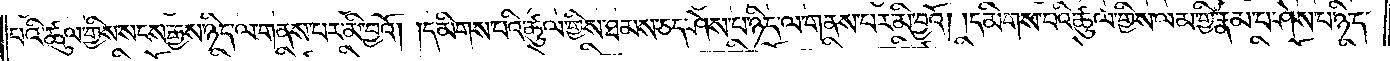པའི་ཚུལ་གྱིས་སངས་རྒྱས་ཉིད་ལ་གནས་པར་མི་བྱའོ། །དམིགས་པའི་ཚུལ་གྱིས་ཐམས་ཅད་ཤེས་པ་ཉིད་ལ་གནས་པར་མི་བྱའོ། །དམིགས་པའི་ཚུལ་གྱིས་ལམ་གྱི་རྣམ་པ་ཤེས་པ་ཉིད་
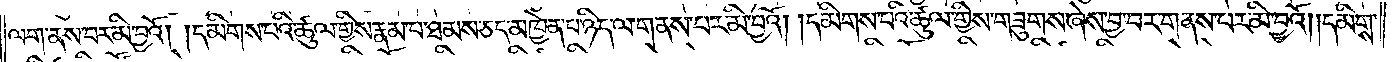ལ་གནས་པར་མི་བྱའོ། །དམིགས་པའི་ཚུལ་གྱིས་རྣམ་པ་ཐམས་ཅད་མཁྱེན་པ་ཉིད་ལ་གནས་པར་མི་བྱའོ། །དམིགས་པའི་ཚུལ་གྱིས་གཟུགས་ཞེས་བྱ་བར་གནས་པར་མི་བྱའོ། །དམིགས་
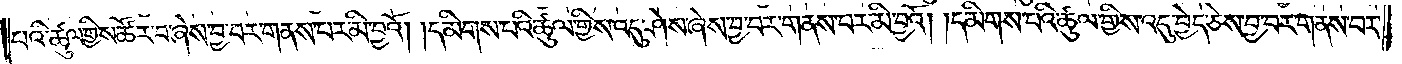པའི་ཚུལ་གྱིས་ཚོར་བ་ཞེས་བྱ་བར་གནས་པར་མི་བྱའོ། །དམིགས་པའི་ཚུལ་གྱིས་འདུ་ཤེས་ཞེས་བྱ་བར་གནས་པར་མི་བྱའོ། །དམིགས་པའི་ཚུལ་གྱིས་འདུ་བྱེད་ཅེས་བྱ་བར་གནས་པར་
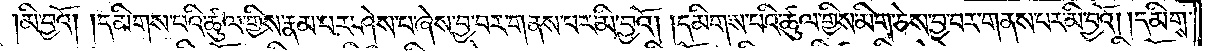མི་བྱའོ། །དམིགས་པའི་ཚུལ་གྱིས་རྣམ་པར་ཤེས་པ་ཞེས་བྱ་བར་གནས་པར་མི་བྱའོ། །དམིགས་པའི་ཚུལ་གྱིས་མིག་ཅེས་བྱ་བར་གནས་པར་མི་བྱའོ། །དམིགས་
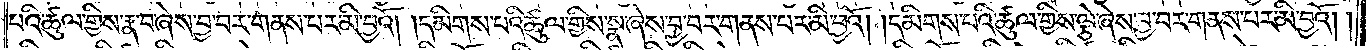པའི་ཚུལ་གྱིས་རྣ་བ་ཞེས་བྱ་བར་གནས་པར་མི་བྱའོ། །དམིགས་པའི་ཚུལ་གྱིས་སྣ་ཞེས་བྱ་བར་གནས་པར་མི་བྱའོ། །དམིགས་པའི་ཚུལ་གྱིས་ལྕེ་ཞེས་བྱ་བར་གནས་པར་མི་བྱའོ། །
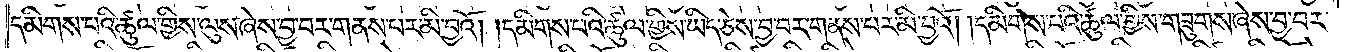དམིགས་པའི་ཚུལ་གྱིས་ལུས་ཞེས་བྱ་བར་གནས་པར་མི་བྱའོ། །དམིགས་པའི་ཚུལ་གྱིས་ཡིད་ཅེས་བྱ་བར་གནས་པར་མི་བྱའོ། །དམིགས་པའི་ཚུལ་གྱིས་གཟུགས་ཞེས་བྱ་བར་
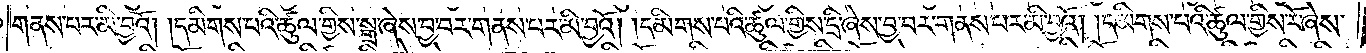གནས་པར་མི་བྱའོ། །དམིགས་པའི་ཚུལ་གྱིས་སྒྲ་ཞེས་བྱ་བར་གནས་པར་མི་བྱའོ། །དམིགས་པའི་ཚུལ་གྱིས་དྲི་ཞེས་བྱ་བར་གནས་པར་མི་བྱའོ། །དམིགས་པའི་ཚུལ་གྱིས་རོ་ཞེས་
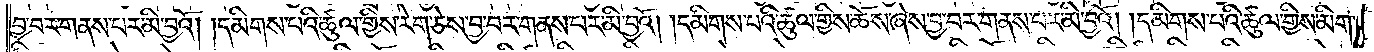བྱ་བར་གནས་པར་མི་བྱའོ། །དམིགས་པའི་ཚུལ་གྱིས་རེག་ཅེས་བྱ་བར་གནས་པར་མི་བྱའོ། །དམིགས་པའི་ཚུལ་གྱིས་ཆོས་ཞེས་བྱ་བར་གནས་པར་མི་བྱའོ། །དམིགས་པའི་ཚུལ་གྱིས་མིག་
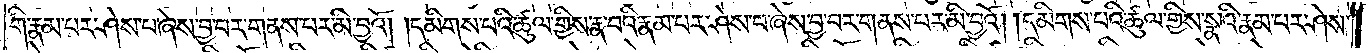གི་རྣམ་པར་ཤེས་པ་ཞེས་བྱ་བར་གནས་པར་མི་བྱའོ། །དམིགས་པའི་ཚུལ་གྱིས་རྣ་བའི་རྣམ་པར་ཤེས་པ་ཞེས་བྱ་བར་གནས་པར་མི་བྱའོ། །དམིགས་པའི་ཚུལ་གྱིས་སྣའི་རྣམ་པར་ཤེས་
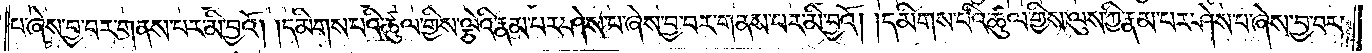པ་ཞེས་བྱ་བར་གནས་པར་མི་བྱའོ། །དམིགས་པའི་ཚུལ་གྱིས་ལྕེའི་རྣམ་པར་ཤེས་པ་ཞེས་བྱ་བར་གནས་པར་མི་བྱའོ། །དམིགས་པའི་ཚུལ་གྱིས་ལུས་ཀྱི་རྣམ་པར་ཤེས་པ་ཞེས་བྱ་བར་
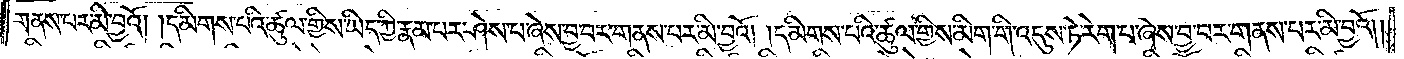གནས་པར་མི་བྱའོ། །དམིགས་པའི་ཚུལ་གྱིས་ཡིད་ཀྱི་རྣམ་པར་ཤེས་པ་ཞེས་བྱ་བར་གནས་པར་མི་བྱའོ། །དམིགས་པའི་ཚུལ་གྱིས་མིག་གི་འདུས་ཏེ་རེག་པ་ཞེས་བྱ་བར་གནས་པར་མི་བྱའོ། །
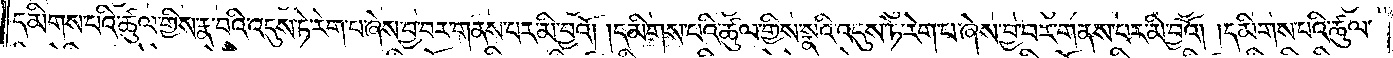དམིགས་པའི་ཚུལ་གྱིས་རྣ་བའི་འདུས་ཏེ་རེག་པ་ཞེས་བྱ་བར་གནས་པར་མི་བྱའོ། །དམིགས་པའི་ཚུལ་གྱིས་སྣའི་འདུས་ཏེ་རེག་པ་ཞེས་བྱ་བར་གནས་པར་མི་བྱའོ། །དམིགས་པའི་ཚུལ་
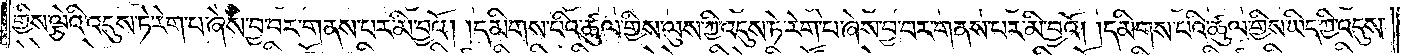གྱིས་ལྕེའི་འདུས་ཏེ་རེག་པ་ཞེས་བྱ་བར་གནས་པར་མི་བྱའོ། །དམིགས་པའི་ཚུལ་གྱིས་ལུས་ཀྱི་འདུས་ཏེ་རེག་པ་ཞེས་བྱ་བར་གནས་པར་མི་བྱའོ། །དམིགས་པའི་ཚུལ་གྱིས་ཡིད་ཀྱི་འདུས་
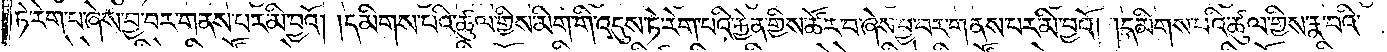ཏེ་རེག་པ་ཞེས་བྱ་བར་གནས་པར་མི་བྱའོ། །དམིགས་པའི་ཚུལ་གྱིས་མིག་གི་འདུས་ཏེ་རེག་པའི་རྐྱེན་གྱིས་ཚོར་བ་ཞེས་བྱ་བར་གནས་པར་མི་བྱའོ། །དམིགས་པའི་ཚུལ་གྱིས་རྣ་བའི་
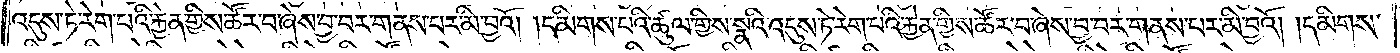འདུས་ཏེ་རེག་པའི་རྐྱེན་གྱིས་ཚོར་བ་ཞེས་བྱ་བར་གནས་པར་མི་བྱའོ། །དམིགས་པའི་ཚུལ་གྱིས་སྣའི་འདུས་ཏེ་རེག་པའི་རྐྱེན་གྱིས་ཚོར་བ་ཞེས་བྱ་བར་གནས་པར་མི་བྱའོ། །དམིགས་
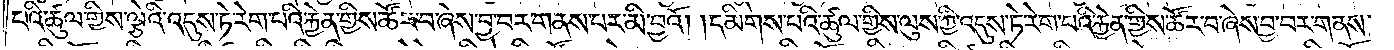པའི་ཚུལ་གྱིས་ལྕེའི་འདུས་ཏེ་རེག་པའི་རྐྱེན་གྱིས་ཚོར་བ་ཞེས་བྱ་བར་གནས་པར་མི་བྱའོ། །དམིགས་པའི་ཚུལ་གྱིས་ལུས་ཀྱི་འདུས་ཏེ་རེག་པའི་རྐྱེན་གྱིས་ཚོར་བ་ཞེས་བྱ་བར་གནས་
